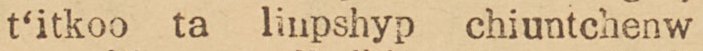t'itkoo ta linpshyp chiuntchenw
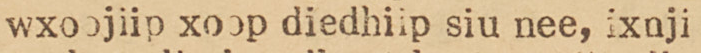wxoojiip xoop diedhiip siu nee, ixnji
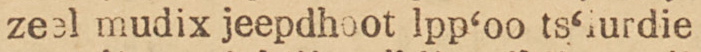zeel mudix jeepdhoot lpp'oo ts'iurdie
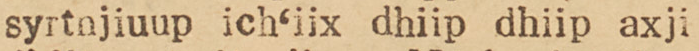syrtnjiuup ich'iix dhiip dhiip axji
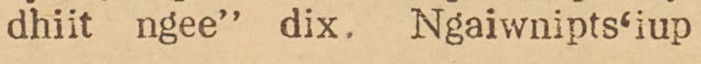dhiit ngee" dix. Ngaiwnipts'iup
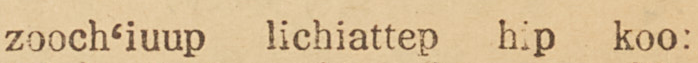zooch'iuup lichiattep hip koo:
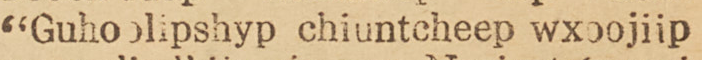"Guhoolipshyp chiuntcheep wxoojiip
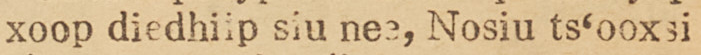xoop diedhiip siu nee, Nosiu ts'ooxsi
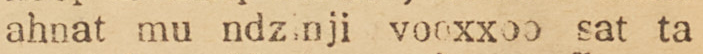ahnat mu ndzinji vooxxoo sat ta
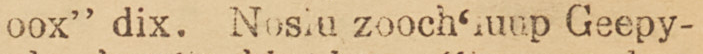oox" dix. Nosiu zooch'iuup Geepy-
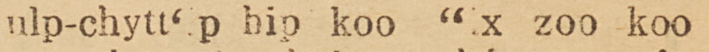nlp-chytt'ip hip koo "ix zoo koo
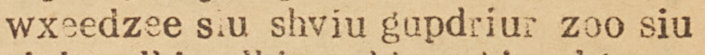wxeedzee siu shviu gupdriur zoo siu
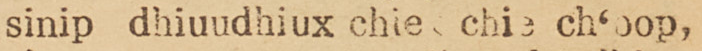sinip dhiuudhiux chie chie ch'oop,
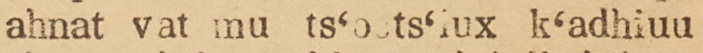ahnat vat mu ts'oots'iux k'adhiuu
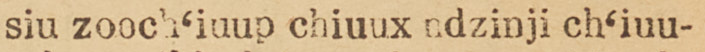siu zooch'iuup chiuux ndzinji ch'iuu-
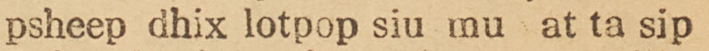psheep dhix lotpop siu mu at ta sip
